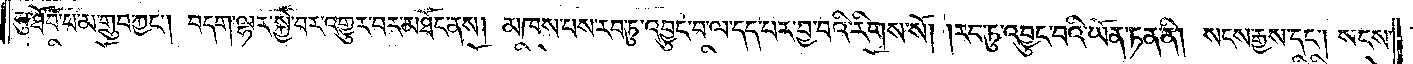སུ་ཐོབ་པ་མ་གྲུབ་ཀྱང༌། བདག་ལྷར་སྐྱེ་བར་འགྱུར་བར་མཐོང་ནས། མཁས་པས་རབ་ཏུ་འབྱུང་བ་ལ་དད་པར་བྱ་བའི་རིགས་སོ། །རབ་ཏུ་འབྱུང་བའི་ཡོན་ཏན་ནི། སངས་རྒྱས་དང༌། སངས་
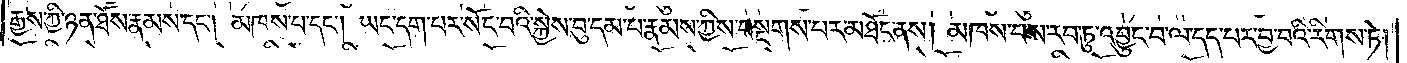རྒྱས་ཀྱི་ཉན་ཐོས་རྣམས་དང༌། མཁས་པ་དང༌། ཡང་དག་པར་སོང་བའི་སྐྱེས་བུ་དམ་པ་རྣམས་ཀྱིས་བསྔགས་པར་མཐོང་ནས། མཁས་པས་རབ་ཏུ་འབྱུང་བ་ལ་དད་པར་བྱ་བའི་རིགས་ཏེ།
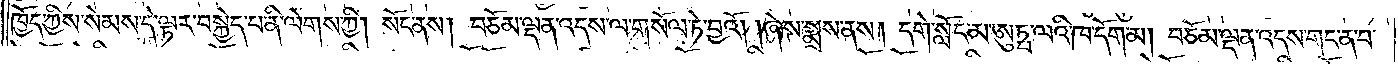ཁྱོད་ཀྱིས་སེམས་དེ་ལྟར་བསྐྱེད་པ་ནི་ལེགས་ཀྱི། སོང་ནས། བཅོམ་ལྡན་འདས་ལ་གསོལ་ཏེ་བྱའོ། །ཞེས་སྨྲས་ནས། དགེ་སློང་མ་ཨུཏྤ་ལའི་ཁ་དོག་མ། བཅོམ་ལྡན་འདས་གང་ན་བ་
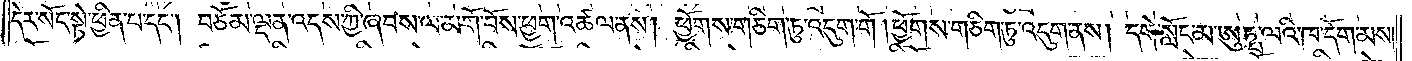དེར་སོང་སྟེ་ཕྱིན་པ་དང༌། བཅོམ་ལྡན་འདས་ཀྱི་ཞབས་ལ་མགོ་བོས་ཕྱག་འཚལ་ནས། ཕྱོགས་གཅིག་ཏུ་འདུག་གོ །ཕྱོགས་གཅིག་ཏུ་འདུག་ནས། དགེ་སློང་མ་ཨུཏྤ་ལའི་ཁ་དོག་མས།
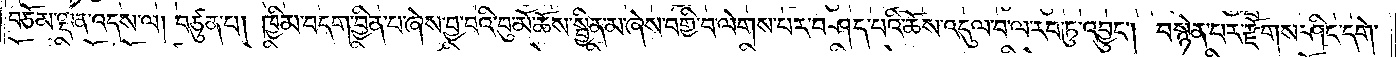བཅོམ་ལྡན་འདས་ལ། བཙུན་པ། ཁྱིམ་བདག་བྱིན་པ་ཞེས་བྱ་བའི་བུ་མོ་ཆོས་སྦྱིན་མ་ཞེས་བགྱི་བ་ལེགས་པར་བཤད་པའི་ཆོས་འདུལ་བ་ལ་རབ་ཏུ་འབྱུང༌། བསྙེན་པར་རྫོགས་ཤིང་དགེ་
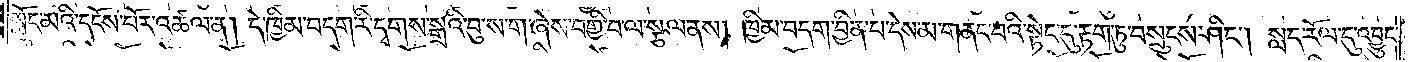སློང་མའི་དངོས་པོར་འཚལ་ན། དེ་ཁྱིམ་བདག་རི་དྭགས་སྒྲའི་བུ་ས་ག་ཞེས་བགྱི་བ་ལ་སྩལ་ནས། ཁྱིམ་བདག་བྱིན་པ་དེས་མ་གནང་བའི་སྟེང་དུ་རྟག་ཏུ་བསྲུངས་ཤིང༌། སླད་རོལ་དུ་འབྱུང་
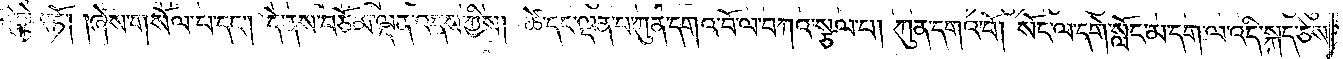དུ་ཡང་མི་སྟེར་ཏོ། །ཞེས་གསོལ་པ་དང༌། དེ་ནས་བཅོམ་ལྡན་འདས་ཀྱིས། ཚེ་དང་ལྡན་པ་ཀུན་དགའ་བོ་ལ་བཀའ་སྩལ་པ། ཀུན་དགའ་བོ། སོང་ལ་དགེ་སློང་མ་དག་ལ་འདི་སྐད་ཅེས་
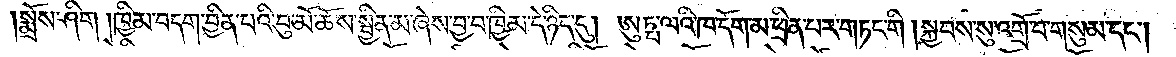།སྨྲོས་ཤིག །ཁྱིམ་བདག་བྱིན་པའི་བུ་མོ་ཆོས་སྦྱིན་མ་ཞེས་བྱ་བ་ཁྱིམ་དེ་ཉིད་དུ། ཨུཏྤ་ལའི་ཁ་དོག་མ་ཕྲིན་པར་གཏང་གི །སྐྱབས་སུ་འགྲོ་བ་གསུམ་དང༌།
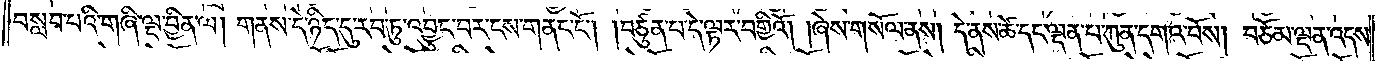བསླབ་པའི་གཞི་ལྔ་བྱིན་ལ། གནས་དེ་ཉིད་དུ་རབ་ཏུ་འབྱུང་བར་ངས་གནང་ངོ༌། །བཙུན་པ་དེ་ལྟར་བགྱིའོ། །ཞེས་གསོལ་ནས། དེ་ནས་ཚེ་དང་ལྡན་པ་ཀུན་དགའ་བོས། བཅོམ་ལྡན་འདས་
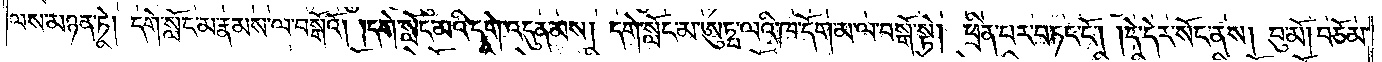ལས་མཉན་ཏེ། དགེ་སློང་མ་རྣམས་ལ་བསྒོའོ། །དགེ་སློང་མའི་དགེ་འདུན་མས། དགེ་སློང་མ་ཨུཏྤ་ལའི་ཁ་དོག་མ་ལ་བསྒོ་སྟེ། ཕྲིན་པར་བཏང་ངོ༌། །དེ་དེར་སོང་ནས། བུ་མོ། བཅོམ་
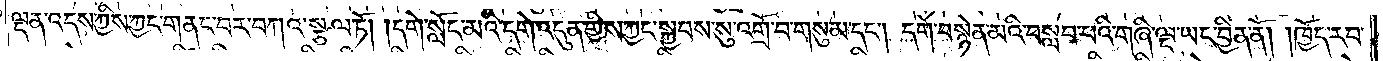ལྡན་འདས་ཀྱིས་ཀྱང་གནང་བར་བཀའ་སྩལ་ཏོ། །དགེ་སློང་མའི་དགེ་འདུན་གྱིས་ཀྱང་སྐྱབས་སུ་འགྲོ་བ་གསུམ་དང༌། དགེ་བསྙེན་མའི་བསླབ་པའི་གཞི་ལྔ་ཡང་བྱིན་ནོ། །ཁྱོད་རབ་
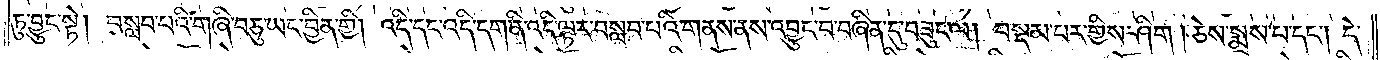ཏུ་བྱུང་སྟེ། བསླབ་པའི་གཞི་བཅུ་ཡང་བྱིན་གྱི། འདི་དང་འདི་དག་ནི་འདི་ལྟར་བསླབ་པའི་གནས་ནས་འབྱུང་བ་བཞིན་དུ་བཟུང་ལ། བསྡམ་པར་གྱིས་ཤིག །ཅེས་སྨྲས་པ་དང༌། དེ་
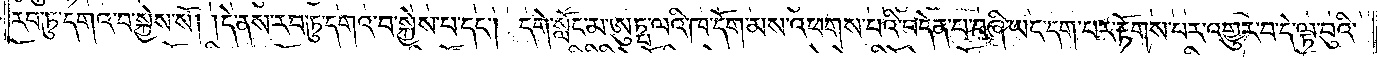རབ་ཏུ་དགའ་བ་སྐྱེས་སོ། །དེ་ནས་རབ་ཏུ་དགའ་བ་སྐྱེས་པ་དང༌། དགེ་སློང་མ་ཨུཏྤ་ལའི་ཁ་དོག་མས་འཕགས་པའི་བདེན་པ་བཞི་ཡང་དག་པར་རྟོགས་པར་འགྱུར་བ་དེ་ལྟ་བུའི་
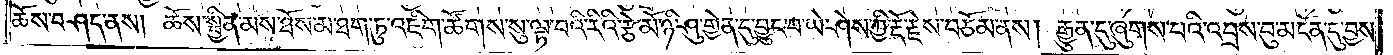ཆོས་བཤད་ནས། ཆོས་སྦྱིན་མས་ཐོས་མ་ཐག་ཏུ་འཇིག་ཚོགས་སུ་ལྟ་བའི་རིའི་རྩེ་མོ་ཉི་ཤུ་གྱེན་དུ་བྱུང་བ་ཡེ་ཤེས་ཀྱི་རྡོ་རྗེས་བཅོམ་ནས། རྒྱུན་དུ་ཞུགས་པའི་འབྲས་བུ་མངོན་དུ་བྱས་
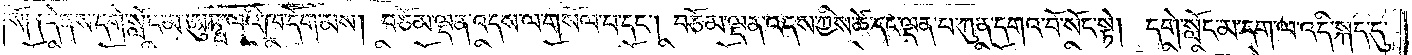སོ༑ ༑དེ་ནས་དགེ་སློང་མ་ཨུཏྤ་ལའི་ཁ་དོག་མས། བཅོམ་ལྡན་འདས་ལ་གསོལ་པ་དང༌། བཅོམ་ལྡན་འདས་ཀྱིས་ཚེ་དང་ལྡན་པ་ཀུན་དགའ་བོ་སོང་སྟེ། དགེ་སློང་མ་དག་ལ་འདི་སྐད་དུ་
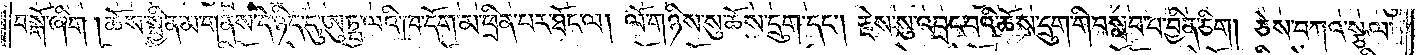བསྒོ་ཞིག །ཆོས་སྦྱིན་མ་གནས་དེ་ཉིད་དུ་ཨུཏྤ་ལའི་ཁ་དོག་མ་ཕྲིན་པར་ཐོང་ལ། ལོ་གཉིས་སུ་ཆོས་དྲུག་དང༌། རྗེས་སུ་འབྲང་བའི་ཆོས་དྲུག་གི་བསླབ་པ་བྱིན་ཅིག །ཅེས་བཀའ་སྩལ་
